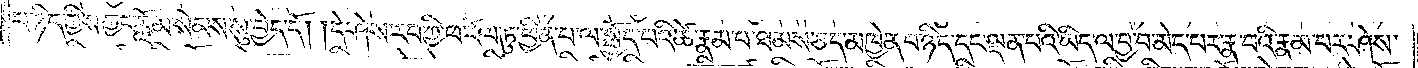པ་ཉིད་ཀྱིས་ཀྱང་རློམ་སེམས་སུ་བྱེད་དོ། །དེ་ཤེས་རབ་ཀྱི་ཕ་རོལ་ཏུ་ཕྱིན་པ་ལ་སྤྱོད་པའི་ཚེ་རྣམ་པ་ཐམས་ཅད་མཁྱེན་པ་ཉིད་དང་ལྡན་པའི་ཡིད་ལ་བྱ་བ་མེད་པར་རྣ་བའི་རྣམ་པར་ཤེས་
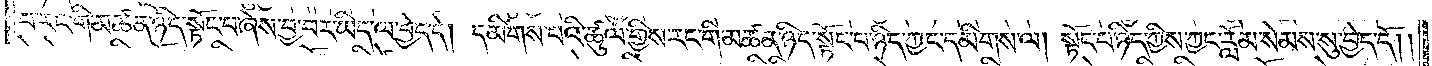པ་རང་གི་མཚན་ཉིད་སྟོང་པ་ཞེས་བྱ་བར་ཡིད་ལ་བྱེད་དེ། དམིགས་པའི་ཚུལ་གྱིས་རང་གི་མཚན་ཉིད་སྟོང་པ་ཉིད་ཀྱང་དམིགས་ལ། སྟོང་པ་ཉིད་ཀྱིས་ཀྱང་རློམ་སེམས་སུ་བྱེད་དོ། །
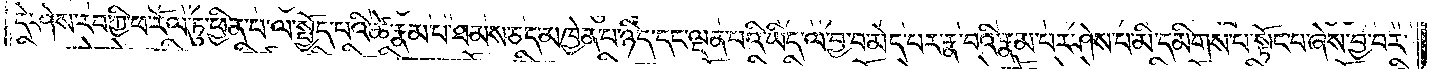དེ་ཤེས་རབ་ཀྱི་ཕ་རོལ་ཏུ་ཕྱིན་པ་ལ་སྤྱོད་པའི་ཚེ་རྣམ་པ་ཐམས་ཅད་མཁྱེན་པ་ཉིད་དང་ལྡན་པའི་ཡིད་ལ་བྱ་བ་མེད་པར་རྣ་བའི་རྣམ་པར་ཤེས་པ་མི་དམིགས་པ་སྟོང་པ་ཞེས་བྱ་བར་
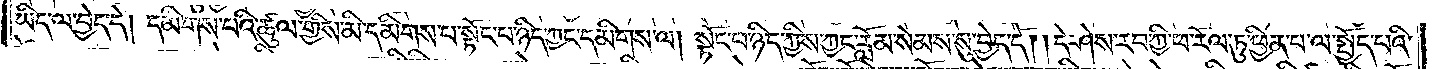ཡིད་ལ་བྱེད་དེ། དམིགས་པའི་ཚུལ་གྱིས་མི་དམིགས་པ་སྟོང་པ་ཉིད་ཀྱང་དམིགས་ལ། སྟོང་པ་ཉིད་ཀྱིས་ཀྱང་རློམ་སེམས་སུ་བྱེད་དོ། །དེ་ཤེས་རབ་ཀྱི་ཕ་རོལ་ཏུ་ཕྱིན་པ་ལ་སྤྱོད་པའི་
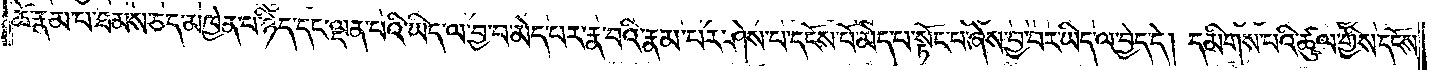ཚེ་རྣམ་པ་ཐམས་ཅད་མཁྱེན་པ་ཉིད་དང་ལྡན་པའི་ཡིད་ལ་བྱ་བ་མེད་པར་རྣ་བའི་རྣམ་པར་ཤེས་པ་དངོས་པོ་མེད་པ་སྟོང་པ་ཞེས་བྱ་བར་ཡིད་ལ་བྱེད་དེ། དམིགས་པའི་ཚུལ་གྱིས་དངོས་
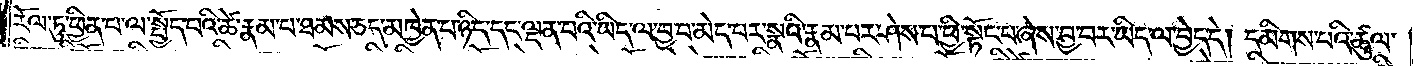རོལ་ཏུ་ཕྱིན་པ་ལ་སྤྱོད་པའི་ཚེ་རྣམ་པ་ཐམས་ཅད་མཁྱེན་པ་ཉིད་དང་ལྡན་པའི་ཡིད་ལ་བྱ་བ་མེད་པར་སྣའི་རྣམ་པར་ཤེས་པ་ཕྱི་སྟོང་པ་ཞེས་བྱ་བར་ཡིད་ལ་བྱེད་དེ། དམིགས་པའི་ཚུལ་
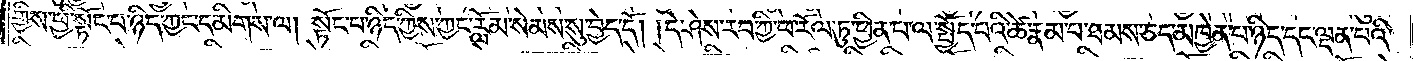གྱིས་ཕྱི་སྟོང་པ་ཉིད་ཀྱང་དམིགས་ལ། སྟོང་པ་ཉིད་ཀྱིས་ཀྱང་རློམ་སེམས་སུ་བྱེད་དོ། །དེ་ཤེས་རབ་ཀྱི་ཕ་རོལ་ཏུ་ཕྱིན་པ་ལ་སྤྱོད་པའི་ཚེ་རྣམ་པ་ཐམས་ཅད་མཁྱེན་པ་ཉིད་དང་ལྡན་པའི་
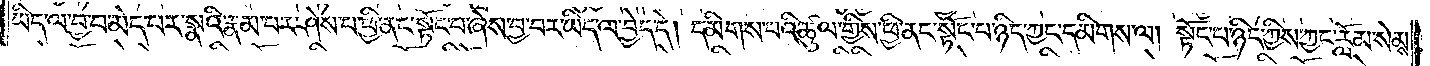ཡིད་ལ་བྱ་བ་མེད་པར་སྣའི་རྣམ་པར་ཤེས་པ་ཕྱི་ནང་སྟོང་པ་ཞེས་བྱ་བར་ཡིད་ལ་བྱེད་དེ། དམིགས་པའི་ཚུལ་གྱིས་ཕྱི་ནང་སྟོང་པ་ཉིད་ཀྱང་དམིགས་ལ། སྟོང་པ་ཉིད་ཀྱིས་ཀྱང་རློམ་སེམས་
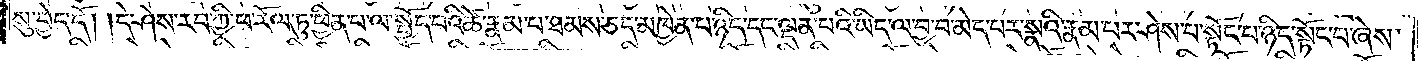སུ་བྱེད་དོ། །དེ་ཤེས་རབ་ཀྱི་ཕ་རོལ་ཏུ་ཕྱིན་པ་ལ་སྤྱོད་པའི་ཚེ་རྣམ་པ་ཐམས་ཅད་མཁྱེན་པ་ཉིད་དང་ལྡན་པའི་ཡིད་ལ་བྱ་བ་མེད་པར་སྣའི་རྣམ་པར་ཤེས་པ་སྟོང་པ་ཉིད་སྟོང་པ་ཞེས་
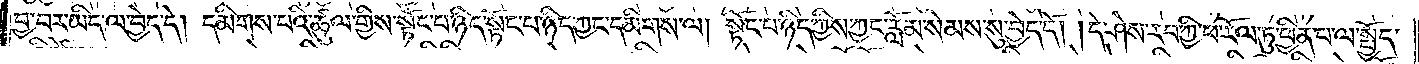བྱ་བར་ཡིད་ལ་བྱེད་དེ། དམིགས་པའི་ཚུལ་གྱིས་སྟོང་པ་ཉིད་སྟོང་པ་ཉིད་ཀྱང་དམིགས་ལ། སྟོང་པ་ཉིད་ཀྱིས་ཀྱང་རློམ་སེམས་སུ་བྱེད་དོ། །དེ་ཤེས་རབ་ཀྱི་ཕ་རོལ་ཏུ་ཕྱིན་པ་ལ་སྤྱོད་
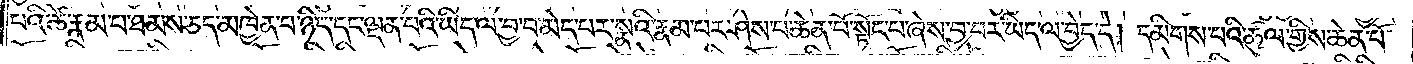པའི་ཚེ་རྣམ་པ་ཐམས་ཅད་མཁྱེན་པ་ཉིད་དང་ལྡན་པའི་ཡིད་ལ་བྱ་བ་མེད་པར་སྣའི་རྣམ་པར་ཤེས་པ་ཆེན་པོ་སྟོང་པ་ཞེས་བྱ་བར་ཡིད་ལ་བྱེད་དེ། དམིགས་པའི་ཚུལ་གྱིས་ཆེན་པོ་
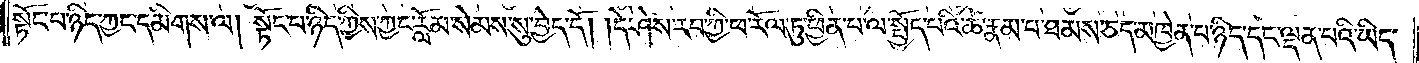སྟོང་པ་ཉིད་ཀྱང་དམིགས་ལ། སྟོང་པ་ཉིད་ཀྱིས་ཀྱང་རློམ་སེམས་སུ་བྱེད་དོ། །དེ་ཤེས་རབ་ཀྱི་ཕ་རོལ་ཏུ་ཕྱིན་པ་ལ་སྤྱོད་པའི་ཚེ་རྣམ་པ་ཐམས་ཅད་མཁྱེན་པ་ཉིད་དང་ལྡན་པའི་ཡིད་
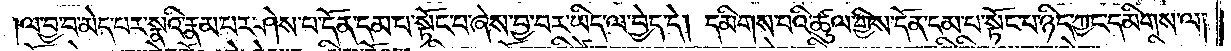ལ་བྱ་བ་མེད་པར་སྣའི་རྣམ་པར་ཤེས་པ་དོན་དམ་པ་སྟོང་པ་ཞེས་བྱ་བར་ཡིད་ལ་བྱེད་དེ། དམིགས་པའི་ཚུལ་གྱིས་དོན་དམ་པ་སྟོང་པ་ཉིད་ཀྱང་དམིགས་ལ།
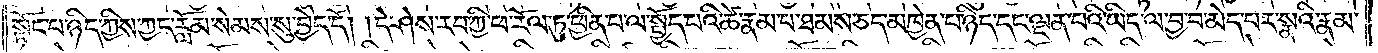སྟོང་པ་ཉིད་ཀྱིས་ཀྱང་རློམ་སེམས་སུ་བྱེད་དོ། །དེ་ཤེས་རབ་ཀྱི་ཕ་རོལ་ཏུ་ཕྱིན་པ་ལ་སྤྱོད་པའི་ཚེ་རྣམ་པ་ཐམས་ཅད་མཁྱེན་པ་ཉིད་དང་ལྡན་པའི་ཡིད་ལ་བྱ་བ་མེད་པར་སྣའི་རྣམ་
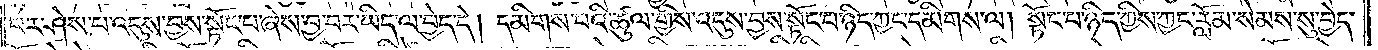པར་ཤེས་པ་འདུས་བྱས་སྟོང་པ་ཞེས་བྱ་བར་ཡིད་ལ་བྱེད་དེ། དམིགས་པའི་ཚུལ་གྱིས་འདུས་བྱས་སྟོང་པ་ཉིད་ཀྱང་དམིགས་ལ། སྟོང་པ་ཉིད་ཀྱིས་ཀྱང་རློམ་སེམས་སུ་བྱེད་
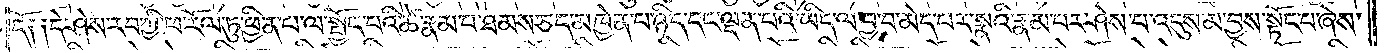དོ༑ ༑དེ་ཤེས་རབ་ཀྱི་ཕ་རོལ་ཏུ་ཕྱིན་པ་ལ་སྤྱོད་པའི་ཚེ་རྣམ་པ་ཐམས་ཅད་མཁྱེན་པ་ཉིད་དང་ལྡན་པའི་ཡིད་ལ་བྱ་བ་མེད་པར་སྣའི་རྣམ་པར་ཤེས་པ་འདུས་མ་བྱས་སྟོང་པ་ཞེས་
